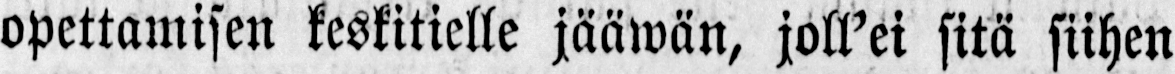opettamisen keskitielle jääwän, joll'ei sitä siihen
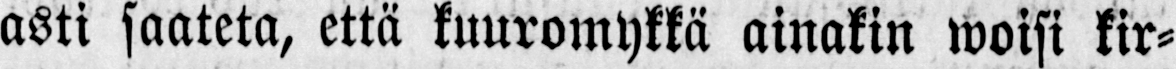asti saateta, että kuuromykkä ainakin woisi kir-
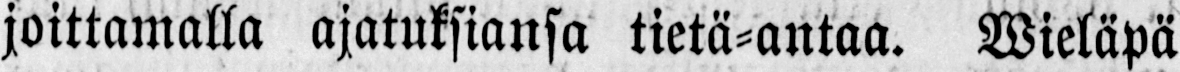joittamalla ajatuksiansa tietä-antaa. Wieläpä
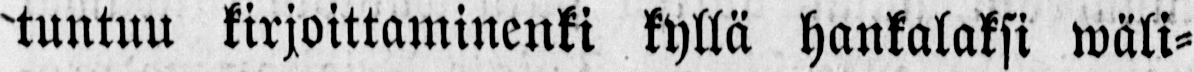tuntuu kirjoittaminenki kyllä hankalaksi wäli-
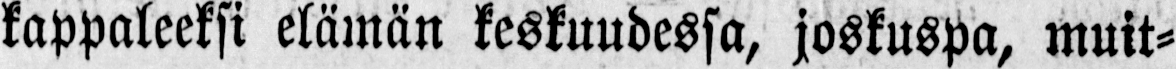kappaleeksi elämän keskuudessa, joskuspa, muit-
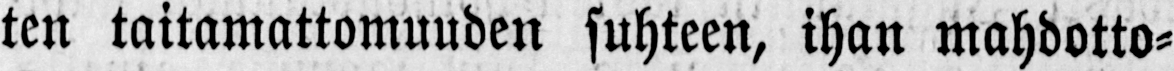ten taitamattomuuden suhteen, ihan mahdotto-
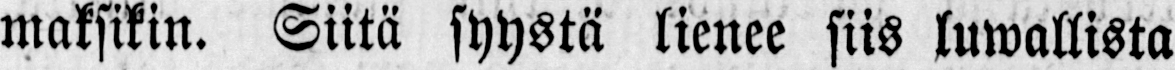maksikin. Siitä syystä lienee siis luwallista
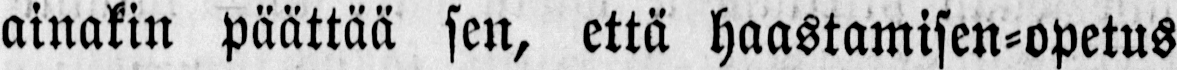ainakin päättää sen, että haastamisen-opetus
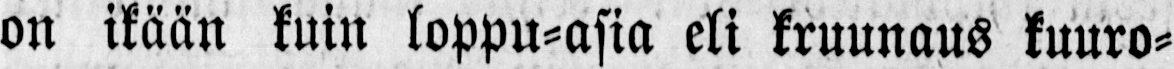on ikään kuin loppu-asia eli kruunaus kuuro-
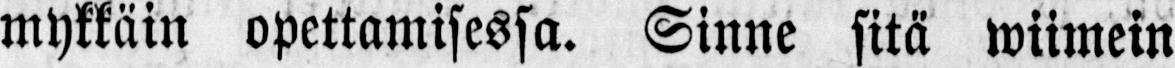mykkäin opettamisessa. Sinne sitä wiimein
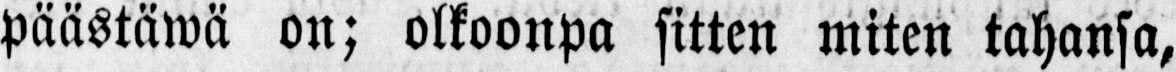päästäwä on; olkoonpa sitten miten tahansa,
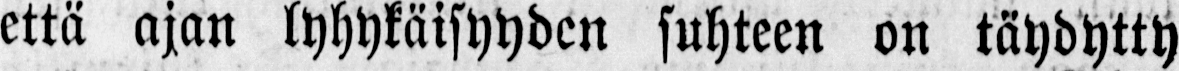että ajan lyhykäisyyden suhteen on täydytty
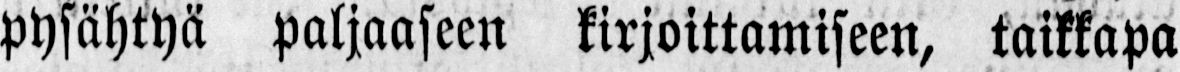pysähtyä paljaaseen kirjoittamiseen, taikkapa
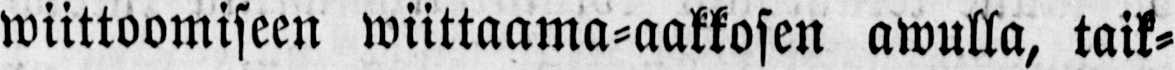wiittoomiseen wiittaama-aakkosen awulla, taik-
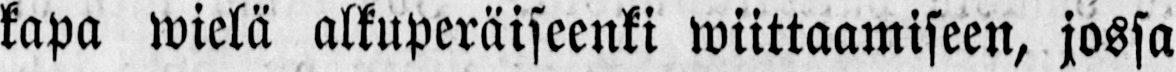kapa wielä alkuperäiseenki wiittaamiseen, jossa
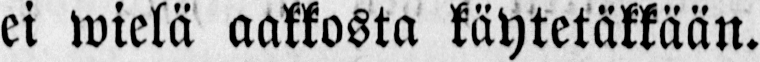ei wielä aakkosta käytetäkkään.
